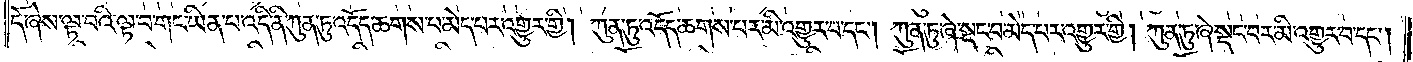དོ་ཞེས་ལྟ་བའི་ལྟ་བ་གང་ཡིན་པ་འདི་ནི་ཀུན་ཏུ་འདོད་ཆགས་པ་མེད་པར་འགྱུར་གྱི། ཀུན་ཏུ་འདོད་ཆགས་པར་མི་འགྱུར་བ་དང༌། ཀུན་ཏུ་ཞེ་སྡང་བ་མེད་པར་འགྱུར་གྱི། ཀུན་ཏུ་ཞེ་སྡང་བར་མི་འགྱུར་བ་དང༌།
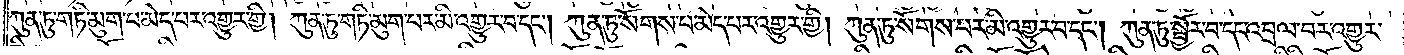ཀུན་ཏུ་གཏི་མུག་པ་མེད་པར་འགྱུར་གྱི། ཀུན་ཏུ་གཏི་མུག་པར་མི་འགྱུར་བ་དང༌། ཀུན་ཏུ་སོགས་པ་མེད་པར་འགྱུར་གྱི། ཀུན་ཏུ་སོགས་པར་མི་འགྱུར་བ་དང༌། ཀུན་ཏུ་སྦྱོར་བ་དང་འབྲལ་བར་འགྱུར་
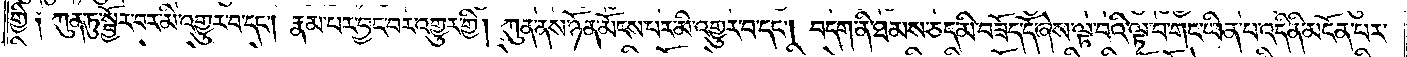གྱི༏ ཀུན་ཏུ་སྦྱོར་བར་མི་འགྱུར་བ་དང༌། རྣམ་པར་བྱང་བར་འགྱུར་གྱི། ཀུན་ནས་ཉོན་མོངས་པར་མི་འགྱུར་བ་དང༌། བདག་ནི་ཐམས་ཅད་མི་བཟོད་དོ་ཞེས་ལྟ་བའི་ལྟ་བ་གང་ཡིན་པ་འདི་ནི་མངོན་པར་
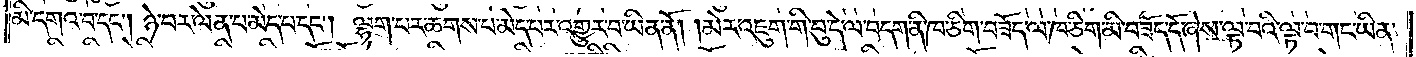མི་དགའ་བ་དང༌། ཉེ་བར་ལེན་པ་མེད་པ་དང༌། ལྷག་པར་ཆགས་པ་མེད་པར་འགྱུར་བ་ཡིན་ནོ། །མེར་འཇུག་གི་བུ་དེ་ལ་བདག་ནི་ཁ་ཅིག་བཟོད་ལ་ཁ་ཅིག་མི་བཟོད་དོ་ཞེས་ལྟ་བའི་ལྟ་བ་གང་ཡིན་
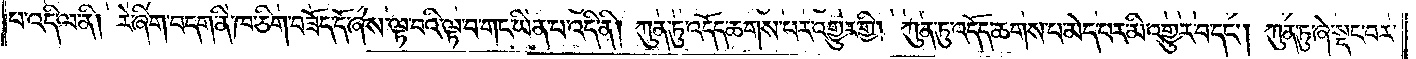པ་འདི་ལ་ནི། རེ་ཞིག་བདག་ནི་ཁ་ཅིག་བཟོད་དོ་ཞེས་ལྟ་བའི་ལྟ་བ་གང་ཡིན་པ་འདི་ནི། ཀུན་ཏུ་འདོད་ཆགས་པར་འགྱུར་གྱི། ཀུན་ཏུ་འདོད་ཆགས་པ་མེད་པར་མི་འགྱུར་བ་དང༌། ཀུན་ཏུ་ཞེ་སྡང་བར་
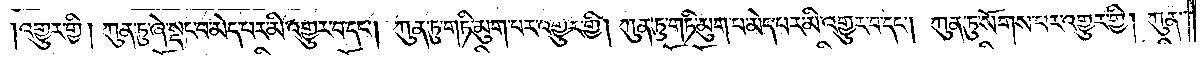འགྱུར་གྱི། ཀུན་ཏུ་ཞེ་སྡང་བ་མེད་པར་མི་འགྱུར་བ་དང༌། ཀུན་ཏུ་གཏི་མུག་པར་འགྱུར་གྱི། ཀུན་ཏུ་གཏི་མུག་པ་མེད་པར་མི་འགྱུར་བ་དང༌། ཀུན་ཏུ་སོགས་པར་འགྱུར་གྱི། ཀུན་
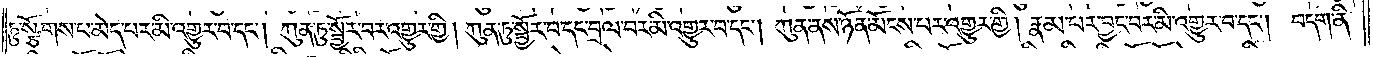ཏུ་སྩོགས་པ་མེད་པར་མི་འགྱུར་བ་དང༌། ཀུན་ཏུ་སྦྱོར་བར་འགྱུར་གྱི། ཀུན་ཏུ་སྦྱོར་བ་དང་བྲལ་བར་མི་འགྱུར་བ་དང༌། ཀུན་ནས་ཉོན་མོངས་པར་འགྱུར་གྱི། རྣམ་པར་བྱང་བར་མི་འགྱུར་བ་དང༌། བདག་ནི་
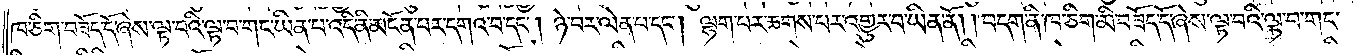ཁ་ཅིག་བཟོད་དོ་ཞེས་ལྟ་བའི་ལྟ་བ་གང་ཡིན་པ་འདི་ནི་མངོན་པར་དགའ་བ་དང༌། ཉེ་བར་ལེན་པ་དང༌། ལྷག་པར་ཆགས་པར་འགྱུར་བ་ཡིན་ནོ། །བདག་ནི་ཁ་ཅིག་མི་བཟོད་དོ་ཞེས་ལྟ་བའི་ལྟ་བ་གང་
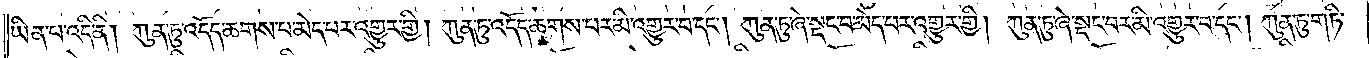ཡིན་པ་འདི་ནི། ཀུན་ཏུ་འདོད་ཆགས་པ་མེད་པར་འགྱུར་གྱི། ཀུན་ཏུ་འདོད་ཆགས་པར་མི་འགྱུར་བ་དང༌། ཀུན་ཏུ་ཞེ་སྡང་བ་མེད་པར་འགྱུར་གྱི། ཀུན་ཏུ་ཞེ་སྡང་བར་མི་འགྱུར་བ་དང༌། ཀུན་ཏུ་གཏི་
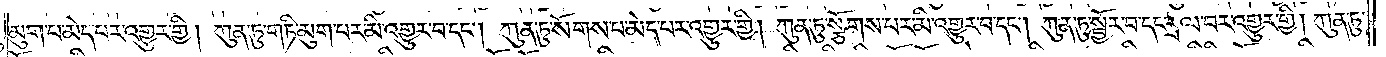མུག་པ་མེད་པར་འགྱུར་གྱི། ཀུན་ཏུ་གཏི་མུག་པར་མི་འགྱུར་བ་དང༌། ཀུན་ཏུ་སོགས་པ་མེད་པར་འགྱུར་གྱི། ཀུན་ཏུ་སྩོགས་པར་མི་འགྱུར་བ་དང༌། ཀུན་ཏུ་སྦྱོར་བ་དང་བྲལ་བར་འགྱུར་གྱི། ཀུན་ཏུ་
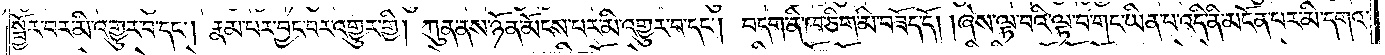སྦྱོར་བར་མི་འགྱུར་བ་དང༌། རྣམ་པར་བྱང་བར་འགྱུར་གྱི། ཀུན་ནས་ཉོན་མོངས་པར་མི་འགྱུར་བ་དང༌། བདག་ནི་ཁ་ཅིག་མི་བཟོད་དོ། །ཞེས་ལྟ་བའི་ལྟ་བ་གང་ཡིན་པ་འདི་ནི་མངོན་པར་མི་དགའ་
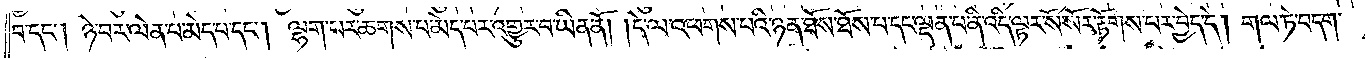བ་དང༌། ཉེ་བར་ལེན་པ་མེད་པ་དང༌། ལྷག་པར་ཆགས་པ་མེད་པར་འགྱུར་བ་ཡིན་ནོ། །དེ་ལ་འཕགས་པའི་ཉན་ཐོས་ཐོས་པ་དང་ལྡན་པ་ནི་འདི་ལྟར་སོ་སོར་རྟོགས་པར་བྱེད་དེ། གལ་ཏེ་བདག་
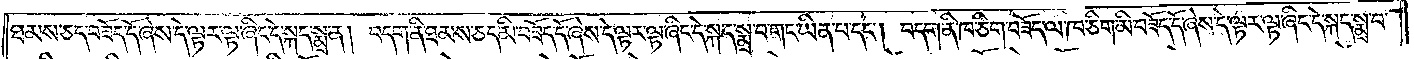ཐམས་ཅད་བཟོད་དོ་ཞེས་དེ་ལྟར་ལྟ་ཞིང་དེ་སྐད་སྨྲ་ན། བདག་ནི་ཐམས་ཅད་མི་བཟོད་དོ་ཞེས་དེ་ལྟར་ལྟ་ཞིང་དེ་སྐད་སྨྲ་བ་གང་ཡིན་པ་དང༌། བདག་ནི་ཁ་ཅིག་བཟོད་ལ་ཁ་ཅིག་མི་བཟོད་དོ་ཞེས་དེ་ལྟར་ལྟ་ཞིང་དེ་སྐད་སྨྲ་བ་
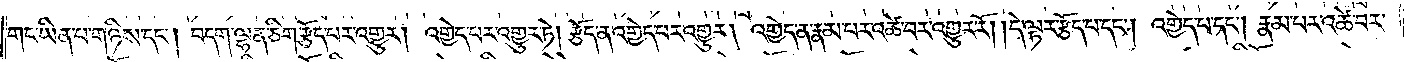གང་ཡིན་པ་གཉིས་དང༌། བདག་ལྷན་ཅིག་རྩོད་པར་འགྱུར། འགྱེད་པར་འགྱུར་ཏེ། རྩོད་ན་འགྱེད་པར་འགྱུར། འགྱེད་ན་རྣམ་པར་འཚེ་བར་འགྱུར་རོ། །དེ་ལྟར་རྩོད་པ་དང༌། འགྱེད་པ་དང༌། རྣམ་པར་འཚེ་བར་
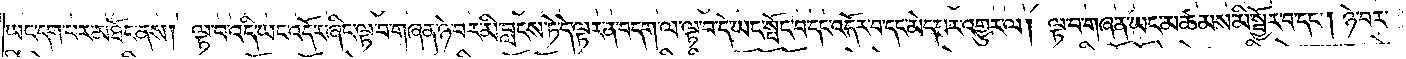ཡང་དག་པར་མཐོང་ནས། ལྟ་བ་འདི་ཡང་འདོར་ཞིང་ལྟ་བ་གཞན་ཉེ་བར་མི་བླངས་ཏེ་དེ་ལྟར་ན་བདག་ལ་ལྟ་བ་དེ་ཡང་སྤོང་བ་དང་འདོར་བ་དང་མེད་པར་འགྱུར་ལ། ལྟ་བ་གཞན་ཡང་མཚམས་མི་སྦྱོར་བ་དང༌། ཉེ་བར་
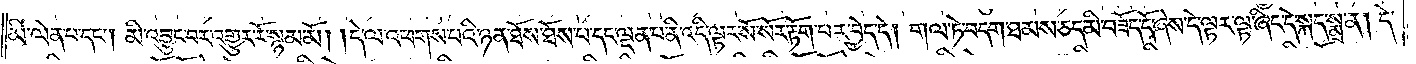མི་ལེན་པ་དང༌། མི་འབྱུང་བར་འགྱུར་རོ་སྙམ་མོ། །དེ་ལ་འཕགས་པའི་ཉན་ཐོས་ཐོས་པ་དང་ལྡན་པ་ནི་འདི་ལྟར་སོ་སོར་རྟོག་པར་བྱེད་དེ། གལ་ཏེ་བདག་ཐམས་ཅད་མི་བཟོད་དོ་ཞེས་དེ་ལྟར་ལྟ་ཞིང་དེ་སྐད་སྨྲ་ན། དེ་
